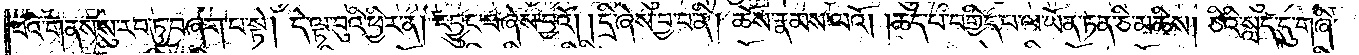བའི་གནས་སུ་རབ་ཏུ་བཞག་པ་སྟེ། དེ་ལྟ་བུའི་ཕྱིར་ན། དབྱུང་བ་ཞེས་བྱའོ། །དྲི་ཞེས་བྱ་བ་ནི། ཆོས་རྣམས་ལའོ། །ཆད་པ་བགྱིད་པ་ལ་ཡོན་ཏན་ཅི་མཆིས། ཅིའི་སླད་དུ་གཞི་
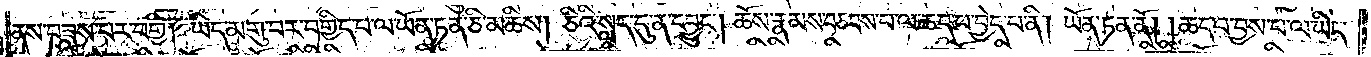ནས་བཟླས་པར་བགྱི། ཡིད་མགུ་བར་བགྱིད་པ་ལ་ཡོན་ཏན་ཅི་མཆིས། ཅིའི་སླད་དུ་ན་དབྱུང༌། ཆོས་རྣམས་བཅབས་པ་ལ་ཆད་པ་བྱེད་པ་ནི། ཡོན་ཏན་ནོ། །ཆད་པ་བྱས་པ་ལ་ཡིད་
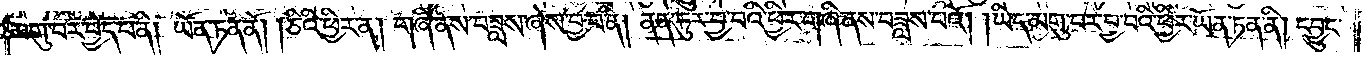མགུ་བར་བྱེད་པ་ནི། ཡོན་ཏན་ནོ། །ཅིའི་ཕྱིར་ན། གཞི་ནས་བཟླས་ཞེས་བྱ་བ་ནི། ནན་ཏུར་བྱ་བའི་ཕྱིར་གཞི་ནས་བཟླས་པའོ། །ཡིད་མགུ་བར་བྱ་བའི་ཕྱིར་ཡོན་ཏན་ནི། དབྱུང་
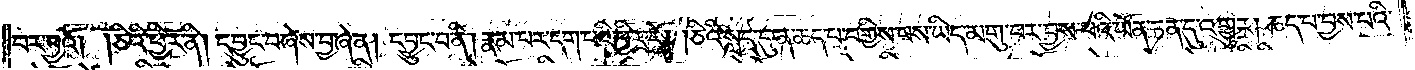བར་བྱའོ། །ཅིའི་ཕྱིར་ནི། དབྱུང་བ་ཞེས་བྱ་ཞེ་ན། དབྱུང་བ་ནི། རྣམ་པར་དག་པའི་ཕྱིར་རོ། །ཅིའི་སླད་དུ་ན་ཆད་པ་བགྱིས་པས་ཡིད་མགུ་བར་བྱས་པའི་ཡོན་ཏན་དུ་འགྱུར། ཆད་པ་བྱས་པའི་
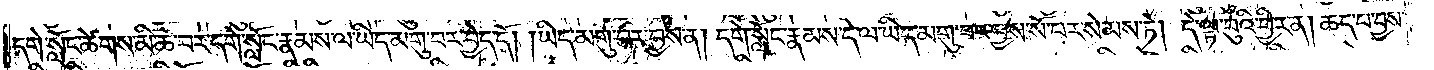དགེ་སློང་ཚེགས་མི་ཚེ་བར་དགེ་སློང་རྣམས་ལ་ཡིད་མགུ་བར་བྱེད་དོ། །ཡིད་མགུ་བར་བྱས་ན། དགེ་སློང་རྣམས་དེ་ལ་ཡིད་མགུ་བར་བྱས་སོ་པར་སེམས་ཏེ། དེ་ལྟ་བུའི་ཕྱིར་ན། ཆད་པ་བྱས་
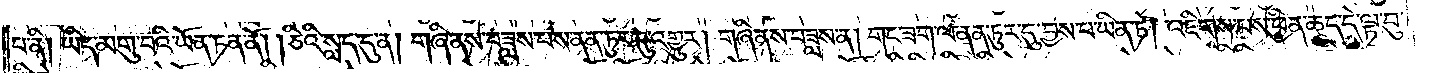པ་ནི། ཡིད་མགུ་བའི་ཡོན་ཏན་ནོ། །ཅིའི་སླད་དུ་ན། གཞི་ནས་བཟླས་པས་ནན་ཏུར་དུ་འགྱུར། གཞི་ནས་བཟླས་ན། གང་ཟག་ལ་ནན་ཏུར་དུ་བྱས་པ་ཡིན་ཏེ། འཇིགས་པས་ཕྱིན་ཆད་དེ་ལྟ་བུ་
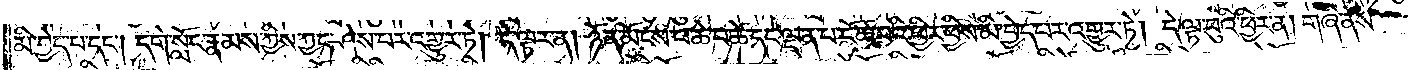མི་བྱེད་པ་དང༌། དགེ་སློང་རྣམས་ཀྱིས་ཀྱང་ཤེས་པར་འགྱུར་ཏེ། དེ་ལྟར་ན། ཉོན་མོངས་པ་ཆེ་བ་ཚེ་དང་ལྡན་པ་ངོ་ཚ་བའི་ཕྱིར་ཕྱིས་མི་བྱེད་པར་འགྱུར་ཏེ། དེ་ལྟ་བུའི་ཕྱིར་ན། གཞི་ནས་
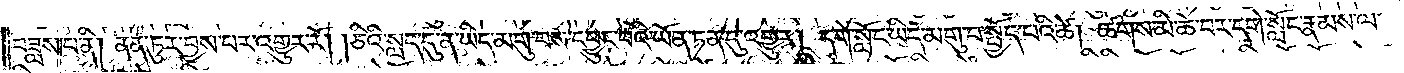བཟླས་པ་ནི། ནན་ཏུར་བྱས་པར་འགྱུར་རོ། །ཅིའི་སླད་དུ་ན་ཡིད་མགུ་བས་དབྱུང་བའི་ཡོན་ཏན་དུ་འགྱུར། དགེ་སློང་ཡིད་མགུ་བ་སྤྱོད་པའི་ཚེ།   ཚགས་མི་ཆེ་བར་དགེ་སློང་རྣམས་ལ་
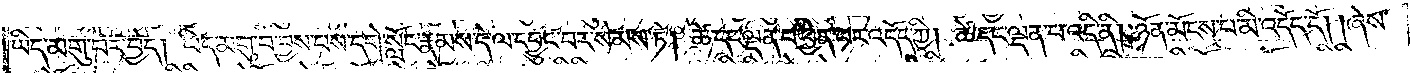ཡིད་མགུ་བར་བྱེད། ཡིད་མགུ་བ་བྱས་པས་དགེ་སློང་རྣམས་དེ་ལ་དབྱུང་བར་སེམས་ཏེ། ཚེ་དང་ལྡན་པ་ཕྱིན་པར་འདོད་ཀྱི། ཚེ་དང་ལྡན་པ་འདི་ནི། ཉོན་མོངས་པ་མི་འདོད་དོ། །ཞེས་
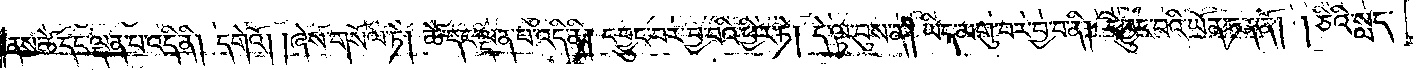ནས་ཚེ་དང་ལྡན་པ་འདི་ནི། དགེའོ། །ཞེས་གསོལ་ཏེ། ཚེ་དང་ལྡན་པ་འདི་ནི། དབྱུང་བར་བྱ་བའི་ཕྱིར་ཏེ། དེ་ལྟ་བུས་ན། ཡིད་མགུ་བར་བྱ་བ་ནི། དབྱུང་བའི་ཡོན་ཏན་ནོ། །ཅིའི་སླད་
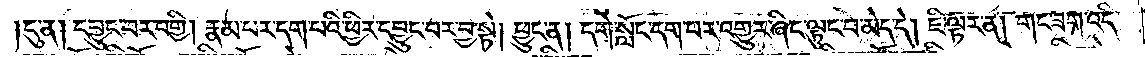དུ་ན། དབྱུང་བར་བགྱི། རྣམ་པར་དག་པའི་ཕྱིར་དབྱུང་བར་བྱ་སྟེ། ཕྱུང་ན། དགེ་སློང་དག་པར་འགྱུར་ཞིང་ལྟུང་བ་མེད་དེ། ཇི་ལྟར་ན། གང་ཟག་འདི་
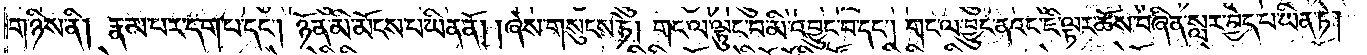གཉིས་ནི། རྣམ་པར་དག་པ་དང༌། ཉོན་མི་མོངས་པ་ཡིན་ནོ། །ཞེས་གསུངས་ཏེ། གང་ལ་ལྟུང་བ་མི་འབྱུང་བ་དང༌། གང་ལ་བྱུང་ནའང་ཇི་ལྟར་ཆོས་བཞིན་སླར་བྱེད་པ་ཡིན་ཏེ།
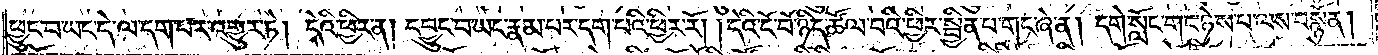ཕྱུང་བ་ཡང་དེ་ལ་དག་པར་འགྱུར་ཏེ། དེའི་ཕྱིར་ན། དབྱུང་བ་ཡང་རྣམ་པར་དག་པའི་ཕྱིར་རོ། །དེའི་ངོ་བོ་ཉིད་ཚོལ་བའི་ཕྱིར་སྦྱིན་པ་གང་ཞེ་ན། དགེ་སློང་གང་ཉེས་པ་ལས་བསྙོན།
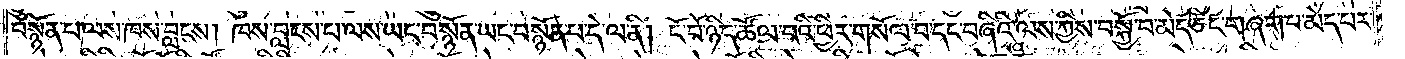བསྙོན་པ་ལས་ཁས་བླངས། ཁས་བླངས་པ་ལས་ཡང་བསྙོན་ཡང་བསྙོན་པ་དེ་ལ་ནི། ངོ་བོ་ཉིད་ཚོལ་བའི་ཕྱིར་གསོལ་བ་དང་བཞིའི་ལས་ཀྱིས་བསྐྱོ་བ་མེད་ཅིང་གཞག་པ་མེད་པར་
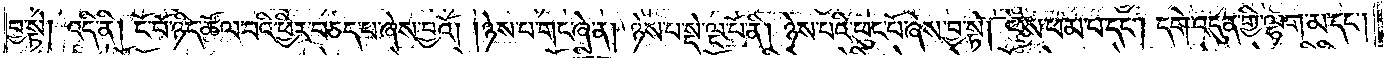བྱ་སྟེ། འདི་ནི། ངོ་བོ་ཉིད་ཚོལ་བའི་ཕྱིར་བཅད་པ་ཞེས་བྱའོ། །ཉེས་པ་གང་ཞེ་ན། ཉེས་པ་སྡེ་ལྔ་པོ་ནི། ཉེས་པའི་ཕུང་པོ་ཞེས་བྱ་སྟེ། ཕས་ཕམ་པ་དང༌། དགེ་འདུན་གྱི་ལྷག་མ་དང༌།
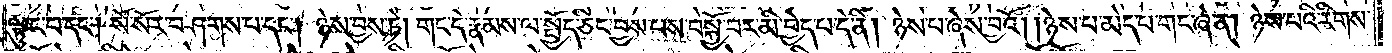ལྟུང་བ་དང༌། སོ་སོར་བཤགས་པ་དང༌། ཉེས་བྱས་ཏེ། གང་དེ་རྣམས་ལ་སྤྱོད་ཅིང་བྱས་པས་བསྐྱོ་བར་མི་བྱེད་པ་དེ་ནི། ཉེས་པ་ཞེས་བྱའོ། །ཉེས་པ་མེད་པ་གང་ཞེ་ན། ཉེས་པའི་རིགས་
